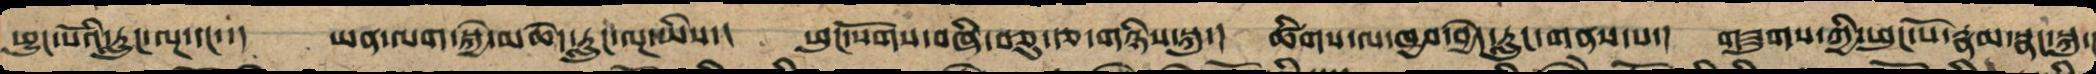ཕུང་པོའི་རླུང་ལྔ་དང་་། ཡན་ལག་སྐྱེ་མཆེད་རླུང་ལྔ་ཡིས་། ཕུང་སོགས་བཞི་བཅུ་རྩ་གཉིས་སྐུ་། ཚིགས་ལ་ཁྱབ་བྱེད་རླུང་གནས་པ་། གཟུགས་ཀྱི་ཕུང་པོ་རྣམ་སྣང་སྐུ་།
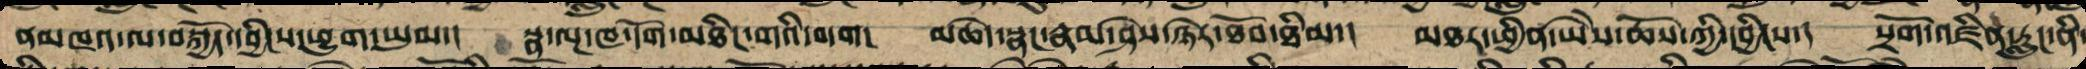ནམཁའ་ལ་བསྐྱོད་དབྱིངས་ཕྱུག་ཡུམ་། སྣ་ལྔ་ཁ་དོག་མཐིང་གའི་བདག། མཆེད་སྣང་རྣམ་ཤེས་ཉེར་ཐོབ་ཐིམ་། མཐར་ཕྱིན་ཡཻས་ཆོས་ཀྱི་དབྱིངས་། སྲོག་འཛིན་རླུང་ནི་
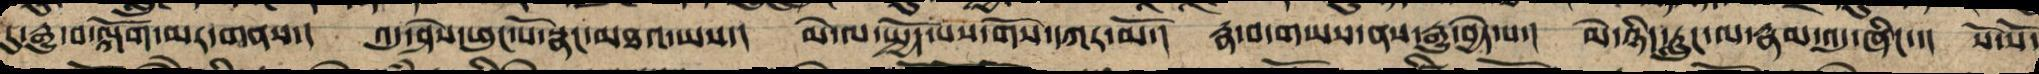དུ་རྒྱུ་བ་ལྐོག་མར་གནས་། འདུ་ཤེས་ཕུང་པོ་སྣང་མཐའ་ཡས་། མེ་ལ་སྤྱོད་པས་གོས་དཀར་མོ་། རྣ་བ་གཡས་ནས་རྒྱུ་བྱེད་པ་། མེ་ཉིད་རླུང་ལ་རྣམ་འདུ་ཞིང་་། སོ་སོ་
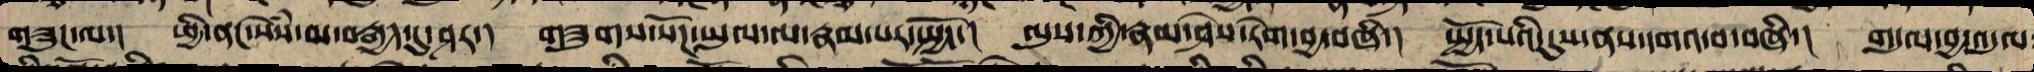བཟུང་ལ་། ཕྱི་ནང་སེཾས་མ་བརྒྱད་དུ་ཤར་། གཟུགས་སོཌ་ཡུལ་ལ་རྣམ་པར་སྤྱོད་། ལུས་ཀྱི་རྣམ་ཤེས་རེག་བྱ་བཞི་། སྤྱོད་པའི་དུས་ནས་དགའ་བ་བཞི་། གདུལ་བྱ་འདུལ་
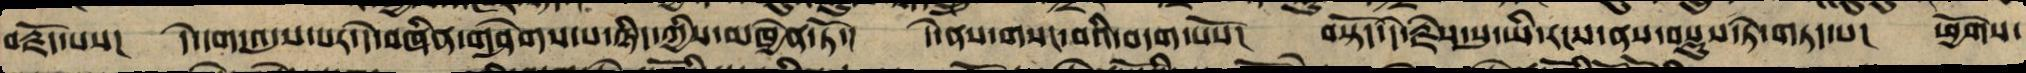བརྗོད་པས་། དེ་དག་འདུས་པར་དེ་བཞིན་གཤེགས་པ་ཉིད་ཀྱིས་མཁྱེན་་ཏོ། དེ་ནས་གསང་བའི་བདག་པོས། བསྟོད་དེ་རྗེས་སུ་ཡི་རང་ནས་བསྡུས་ཏེ་གཏད་པ། ཕྱོགས་
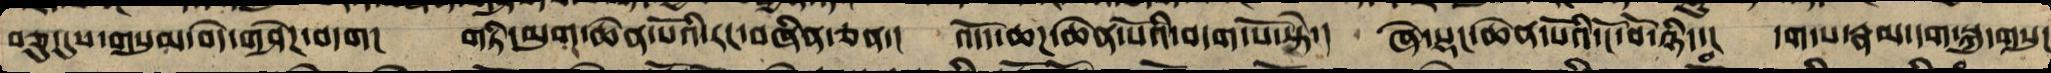བཅུ་དུས་གསུམ་བདེ་གཤེགས་བདག་ གཏི་མུག་ཆེན་པོའི་རང་བཞིན་ཅན་། འདོད་ཆཌ་ཆེན་པོའི་བདག་པོ་སྟེ་། ཞེ་སྡང་ཆེན་པོའི་ངོ་བོ་ཉིད་། དག་པ་རྣམ་དག་སྐུ་གསུང
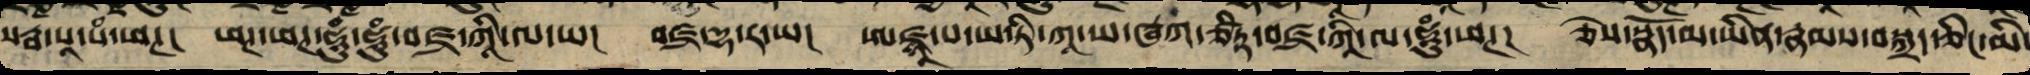སརྦ་པཱ་པཾ་ཕཊ། ཕཊ་ཕཊ་ཧཱུྃ་ཧཱུྃ་བཛྲ་ཀཱི་ལ་ཡ། བཛྲ་དྷ་རོ་ཡ། ཨཱ་ཛྙཱ་པ་ཡ་ཏི་ཀཱ་ཡ་ཝཀ་ཙིཏྟ་བཛྲ་ཀཱི་ལ་ཡ་ཧཱུྃ་ཕཊ། ཅེས་སྣོད་མ་ཡིན་རྣམས་བསྐྲད་ཅིང་མི་
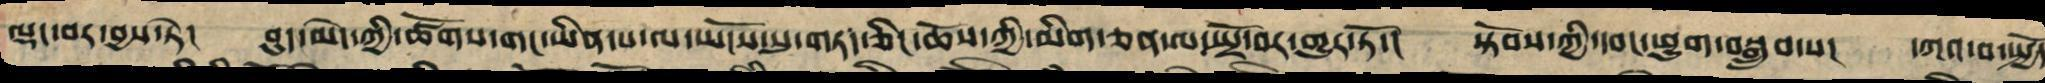ལྡང་བར་བྱས་ཏེ། བུད་མེད་ཀྱི་ཚོགས་གང་ཡིན་པ་ལ་ཡོངས་སུ་གཏད་ཅིང་ཆོས་ཀྱི་མིག་ཅན་ལ་སྤྲོ་བར་གྱུར་ཏོ་། སྟོབས་ཀྱི་དབང་ཕྱུག་བསྒྲུབ་པ་། དཀའ་བ་སྤྱོད
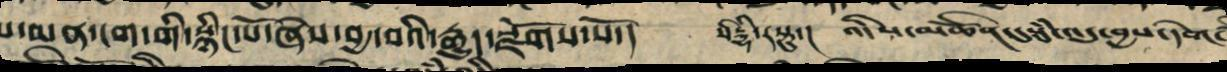པ་མན་ངག་གི་སྙིང་པོ་ཞེས་བྱ་བའི་རྒྱུད་སྫོགས་སོ་།། སིདྡྷི་རསྟུ། འདིས་མཚོན་དུསུཾ་འདུ་བྱས་དགེ་
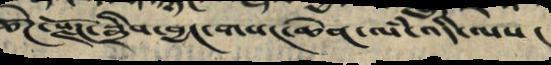ཚོཌ་སྫོཌ་སྒྲིབ་བྱང་གསང་ཆེན་ལཾ་འདི་ལས།
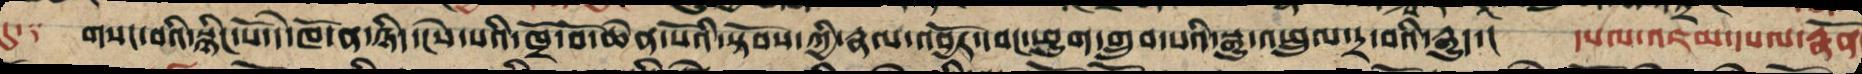དུ་༑ གསང་བའི་སྙིང་པོ་དེ་ཁོ་ན་ཉིད་ངེས་པའི་ཁྲོ་བོ་ཆེན་པོ་སྟོབས་ཀྱི་རྣལ་འབྱོར་དབང་ཕྱུག་གྲུབ་པའི་སྒྱུ་འཕྲུལ་དྲ་བའི་རྒྱུད་། དཔལ་འཇམ་དཔལ་རྣོན
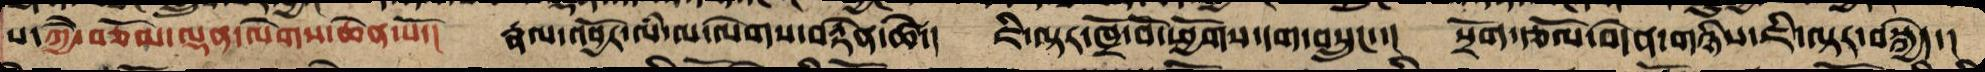པ་ཀྱཻ་བཅོམ་ལྡན་འདས་ལེགས་ཆེན་པོ་། རྣལ་འབྱོར་ལཾ་ལ་ལེགས་བརྟེན་ཚེ་། ཇི་ལྟར་ཁྲོ་བོ་ཕྱོགས་དག་བསྲུང་་། སྲོག་རྩོལ་བདེན་གཉིས་ཇི་ལྟར་བསྐྱེད་།
